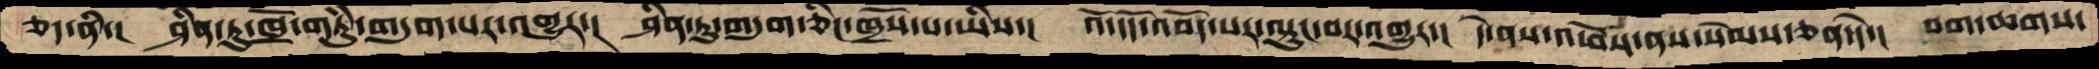ཅད་ནི་།  ཤིན་ཏུ་ཁྲོ་གཏུཾ་གདུག་པར་འགྱུར་།  ཤིན་ཏུ་གདུག་ཅིང་ཁྲོས་པ་ཡིས་།  འོ་དོད་འབོད་པར་ལྟུང་བར་འགྱུར་།  དེ་ནས་འཕོས་ནས་སེམས་ཅན་དེ་།  བག་ཆགས་
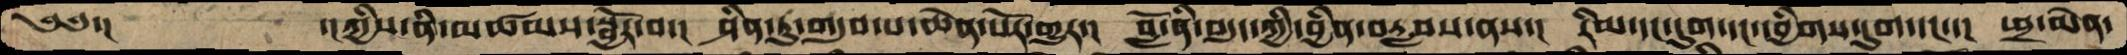༄༅་།      ་།ཀྱིས་ནི་མཚམས་སྦྱོར་བ་།   ཤིན་ཏུ་གདུབ་པ་ཆེན་པོར་གྱུར་།   བློ་ནི་བདུད་ཀྱི་བྱིན་བརླབས་ནས་།  རིམ་དང་དུག་དང་དབྱིགས་དུག་དང་་།  ཕྲ་མེན་
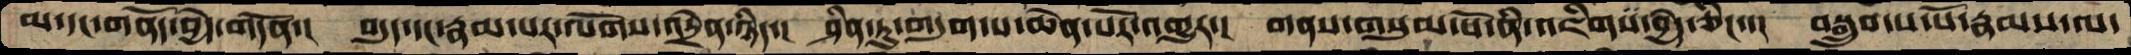མ་དང་གནོད་བྱེད་གདོན་།    བདུད་དང་རྣམ་པར་ལོགས་འདྲེན་ཉིད་།  ཤིན་ཏུ་གདུག་པ་ཆེན་པོར་འགྱུར་།  གནས་གསུམ་པོ་ནི་འཇིགས་བྱེད་ཅིང་་།  བསྒྲུབ་པ་པོ་རྣམས་ལ་
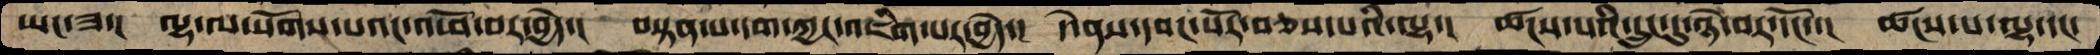ཡང་ཟ་།   ལྷ་ལ་སོགས་པའང་འཕོ་བར་བྱེད་།  བསྟན་པ་དག་ཀྱང་འཇིག་པར་བྱེད་།  དེ་ནས་དབང་པོར་བཅས་པའི་ལྷ་།  ཚངས་པའི་དྲུང་དུ་ཉེ་བར་དངོས་།  ཚངས་པ་ལྷ་དང་
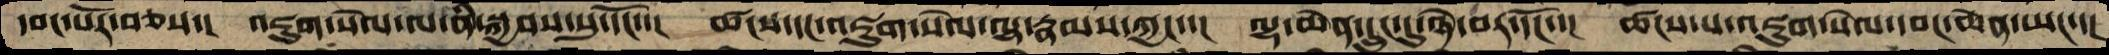དབང་པོར་བཅས་།   འཇུག་སེལ་ལ་ནི་སྐྱབས་སུ་དོང་་།   ཚངས་དང་འཇུག་སེལ་ལྷ་རྣམས་ཀྱང་་།  ལྷ་ཆེན་དྲུང་དུ་ཉེ་བར་དངོས་་།  ཚངས་པ་འཇུག་སེལ་དབང་ཆེན་ཡང་་།
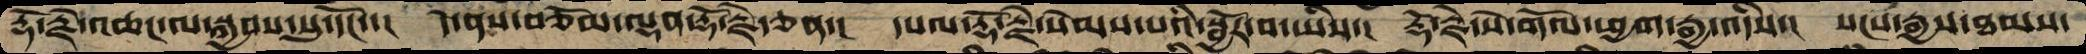རྡོ་རྗེ་འཆང་ལ་སྐྱབས་སུ་དོང་་།  དེ་ནས་བཅོམ་ལྡན་རྡོ་རྗེ་ཅན་།  དཔལ་རྡོ་རྗེ་སེམས་པའི་སྦྱོར་བ་ཡིས་།  རྡོ་རྗེ་སེ་གོལ་ཕྱག་རྒྱ་འདིས་།  སངས་རྒྱས་ཐམས་
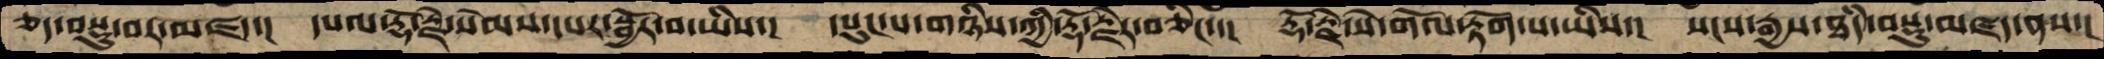ཅད་བསྡུ་བར་མཛད་།  དཔལ་རྡོ་རྗེ་སེམས་དཔར་སྦྱོར་་བ་ཡིས་།  དཔུང་པ་གཉིས་ཀྱི་རྡོ་རྗེར་བཅིང་་།  རྡོ་རྗེ་སེ་གོལ་རྟོག་པ་ཡིས་།  སངས་རྒྱས་ཐཾད་བསྡུ་མཛད་ནས་།
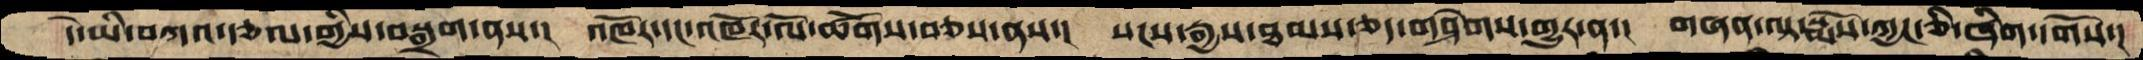དེ་ཡི་བཀའ་རྩལ་གྱིས་བསྒྲག་ནས་།  འཁོར་དང་འཁོར་ལོ་ཚོགས་བཅས་ནས་།  སངས་རྒྱས་ཐམས་ཅད་གཤེགས་གྱུར་ན་།།  གཞན་ལྟ་སྨོས་ཀྱང་ཅི་ཞིག་དགོས་།
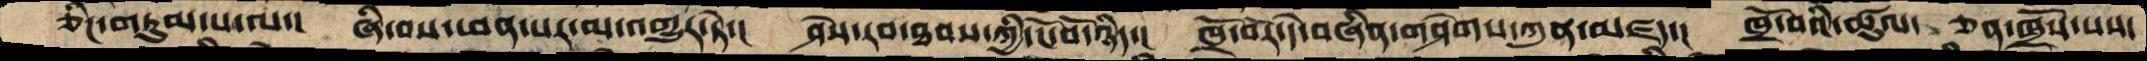ཅིང་གཏུམ་པ་ལ་།  ཞི་བས་ཕན་པར་མ་འགྱུར་ཏེ་།  ཤེས་རབ་ཐབས་ཀྱིི་ངོ་བོ་ཉིད་།  ཁྲོ་བོར་དེ་བཞིན་གཤེགས་ཀུན་མཛད་།  ཁྲོ་བའི་ཚུལ་ ཅན་ཁྲོས་པས་
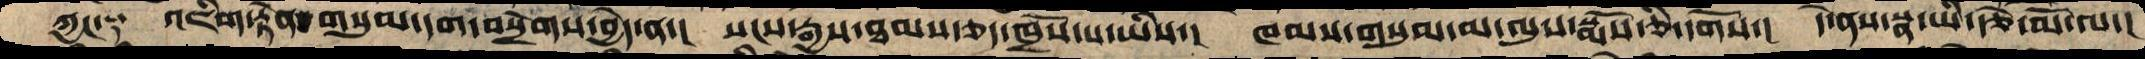ཀྱང་༑   འཇིག་རྟེན་གསུམ་དག་བསྲེགས་བྱེད་ན་།  སངས་རྒྱས་ཐམས་ཅད་ཁྲོས་པ་ཡིས་།  ཁམས་གསུམ་མ་ལུས་སྨོས་ཅི་དགོས་།  དེ་ནས་སྣ་ཡི་རྩེ་མོ་ལ་།
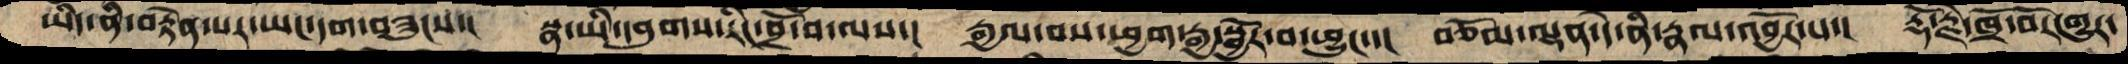ཡིད་ནི་བརྟེན་པར་ཡང་དག་བཟུངས་།    སྣ་ཡི་དབུགས་རིང་བྲོ་བ་ལས་།  རྒྱལ་བས་ཕྱག་རྒྱ་སྦྱོར་བ་ཕྱུང་་།  བཅོམ་ལྡན་དེ་ནི་རྣལ་འབྱོར་པ་།  རྡོ་རྗེ་ཁྲོ་བོར་གྱུར་
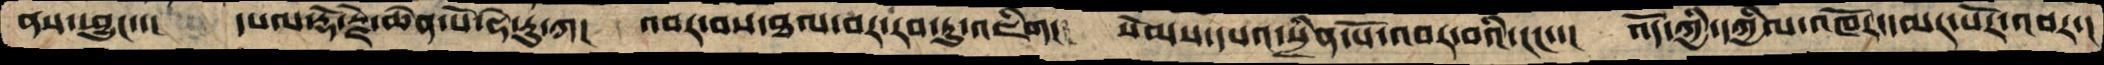ནས་ཕྱུང་་།  དཔལ་རྡོ་རྗེ་ཆེན་པོ་ཧེ་རུ་ཀ།   འབར་བས་ཐལ་བར་རབ་ཏུ་འཇིག།  སེམས་དཔའ་སྲིན་པོ་འབར་བའི་ངང་་།  འོད་ཀྱི་དཀྱིལ་འཁོར་དམར་པོར་འབར་།
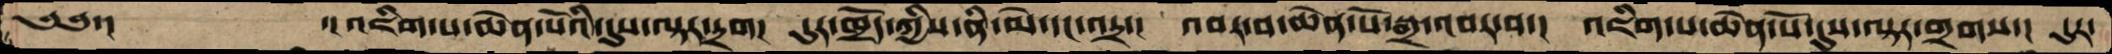༄༅་།      ་། འཇིག་པ་ཆེན་པོའི་དུས་ལྟར་དྲག།  དུར་ཁྲོད་ཀྱིས་ནི་མེ་དང་འདྲ་།  འབར་བ་ཆེན་པོ་སྒྲ་འབར་བ་།   འཇིག་པ་ཆེན་པོ་དུས་ལྟར་གྲགས་།  དུར་
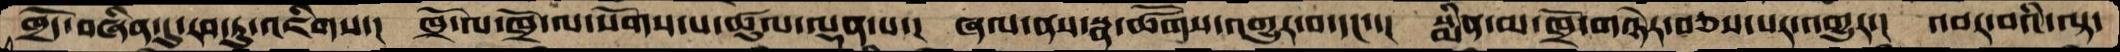ཁྲོད་བཞིན་དུ་རབ་ཏུ་འཇིགས་།  ཁྲོ་ལ་ཁྲོ་ལ་སོགས་པ་ཚུལ་ལྡན་པ་།  ཞལ་ནས་སྣ་ཚོགས་འགྱུར་བ་དང་་།  སྨིན་མ་ཁྲོ་གཉེར་བཅས་པར་འགྱུར་།  འབར་བའི་ལྟ་
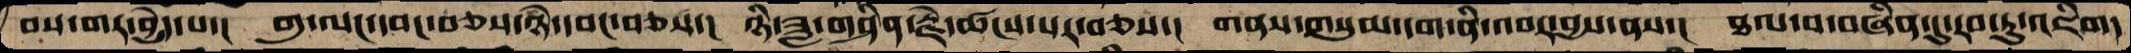བས་གར་བྱེད་པ་།  གུ་ལང་དབང་བཅས་ཉཾ་དབང་བཅས་།  ཉི་ཟླ་གཤིན་རྗེ་ཚངས་པར་བཅས་།  གནས་གསུམ་དག་ནི་འབར་བྱས་ནས་།  ཐལ་བ་བཞིན་དུ་རབ་ཏུ་འཇིག།
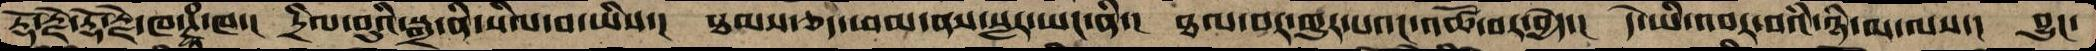རྡོ་རྗེ་རྡོ་རྗེ་ཁ་ཊྭཱཾ་ཁ་།  དྲིལ་བུའི་སྒྲ་ནི་སིལ་བ་ཡིས་།  ཐམས་ཅད་ཕམ་ནས་སླར་ཡང་ནི་།  ཐལ་བར་གྱུར་པའང་འཚོ་བར་བྱེད་།  དེ་ཡི་འབར་བའི་ཉི་མ་ལས་།  བྱུང་
